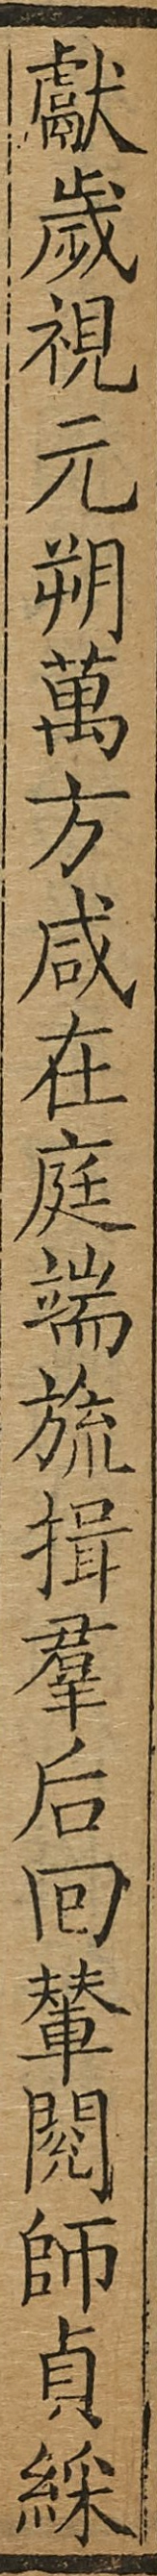獻歲視元朔萬方咸在庭端旒揖羣后回輦閱師貞綵
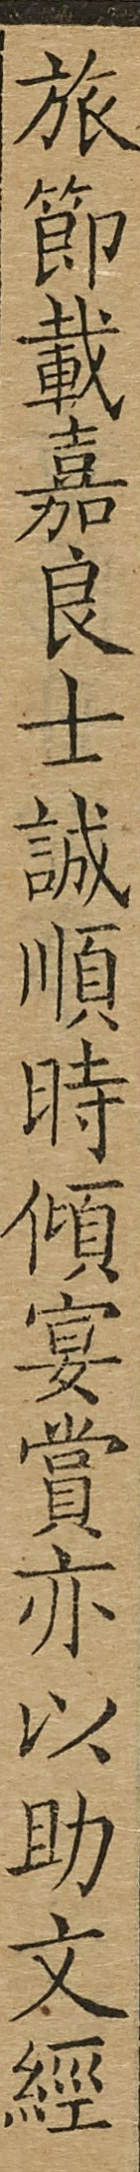旅節載嘉良士誠順時傾宴賞亦以助文經
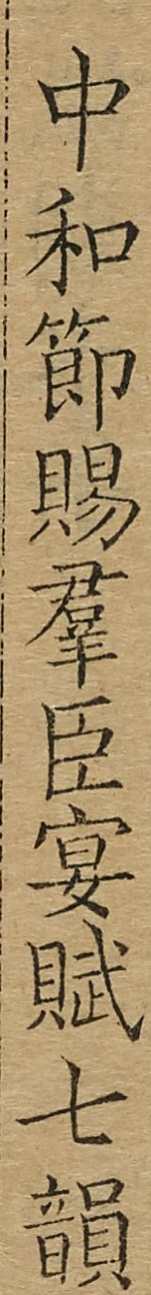中和節賜羣臣宴賦七韻
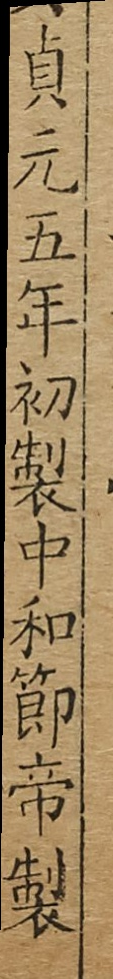貞元五年初製中和節帝製
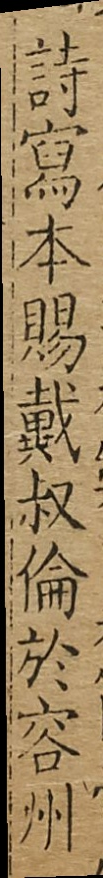詩寫本賜戴叔倫於容州
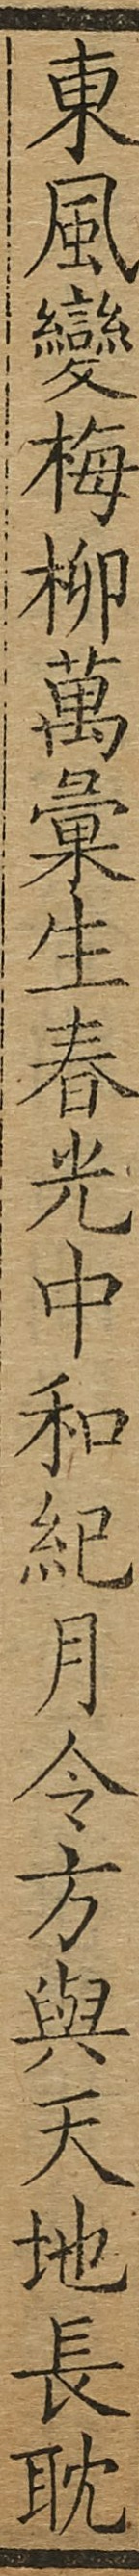東風變梅柳萬彙生春光中和紀月令方與天地長耽
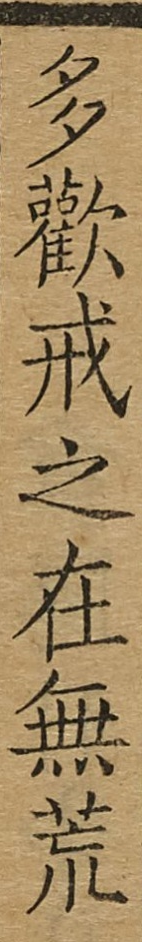多歡戒之在無荒
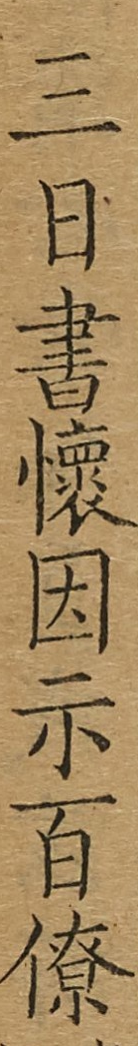三日書懷因示百僚
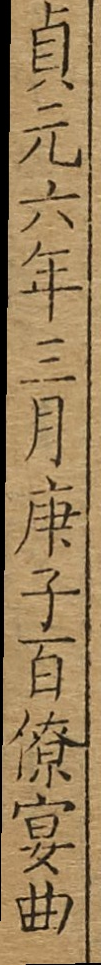貞元六年三月康子百僚宴曲
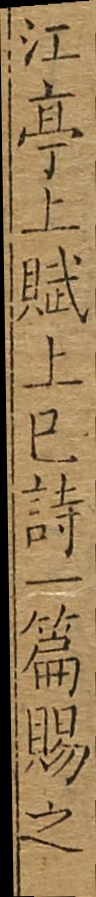江亭上巳詩一篇賜之
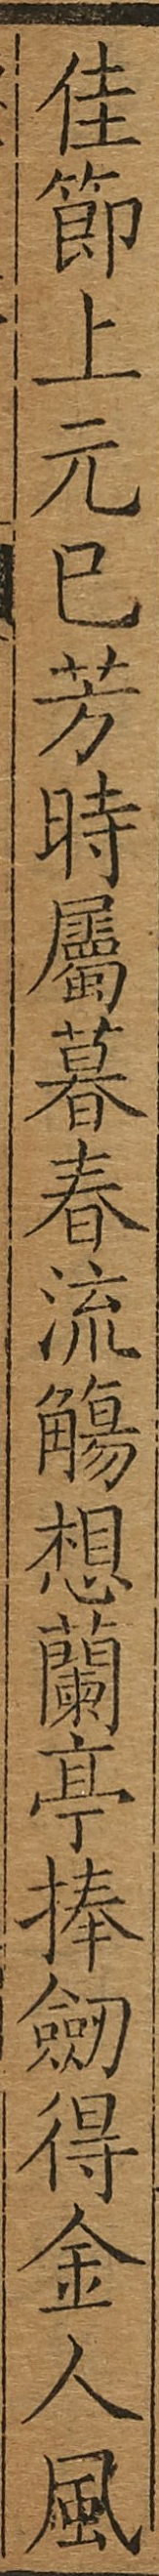佳節上元巳芳時屬暮春流觴想蘭亭捧劍得金人風
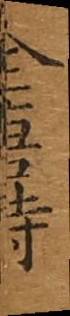全唐詩
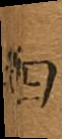四
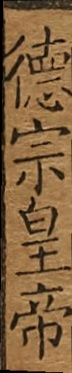德宗皇帝
